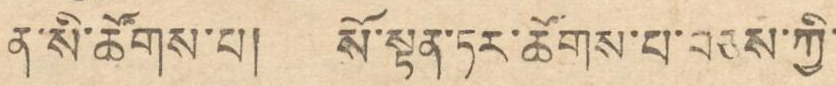ན་སི་ཚོགས་པ། སོ་སྟན་ཏར་ཚོགས་པ་བཅས་ཀྱི་
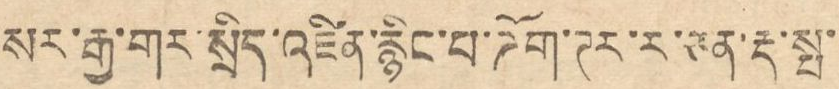སར་རྒྱ་གར་སྲིད་འཛིན་རྙིང་པ་ཌོག་ཊར་ར་ཅན་རྡ་སྤ་
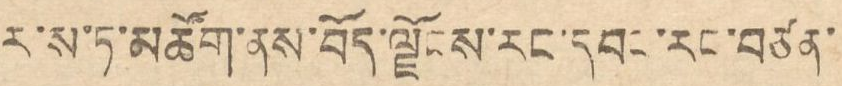ར་ས་ཏ་མཚོག་ནས་བོད་ལྗོངས་རང་དབང་རང་བཙན་
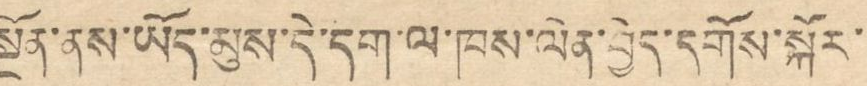སྔོན་ནས་ཡོད་མུས་དེ་དག་ལ་ཁས་ལེན་བྱེད་དགོས་སྐོར་
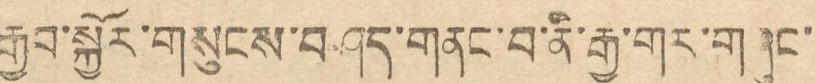རྒྱབ་སྐྱོར་གསུངས་བཤད་གནང་བ་ནི་རྒྱ་གར་གཞུང་
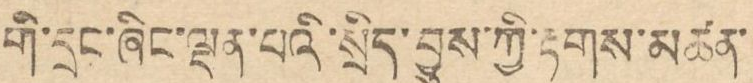གི་དྲང་ཞིང་ལྡན་པའི་སྲིད་བྱུས་ཀྱི་རྟགས་མཚན་
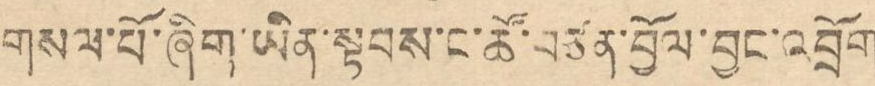གསལ་པོ་ཞིག་ཡིན་སྟབས་ང་ཚོ་བཙན་བྱོལ་བྱང་འབྲོག
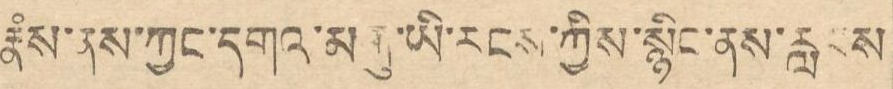རྣཾས་ན་ཀྱང་དགའ་མགུ་ཡི་རངས་ཀྱིས་སྙིང་ནས་རླབས་
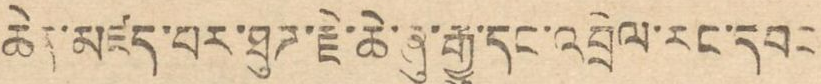ཆེན་མཛད་པར་ཐུཊ་རྗེ་ཆེ་ཞུ་རྒྱུ་དང་འབྲེལ་རང་དབང
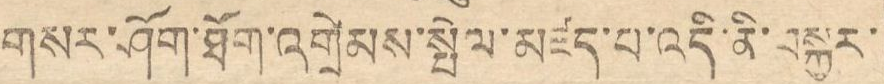གསར་ཤོག་ཐོག་འགྲེམས་སྤེལ་མཛད་པ་འདི་ནི་བསྐྱར་
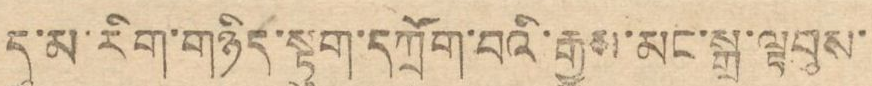དུ་མ་རིག་གཉིད་སྟུག་དཀྲོག་བའི་རྒྱུས་མང་སྒྲ་ལྟ བུས་
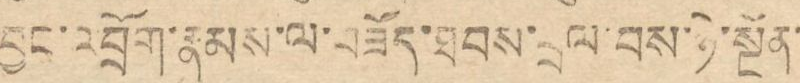བྱང་འབྲོག་རྣམས་ལ་བཟོད་ཐབས་བྲལ་བས་ཉེ་སྔོན་
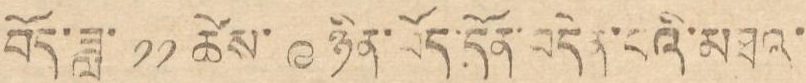བོད་ཟླ་ ༡༡ ཚེས་ ༩ ཉིན་བོད་དོན་བདེན་པའི་མཐའ་
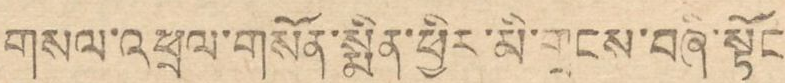གསལ་འཕྲལ་གསོན་སྨིན་ཕྱིར་མི་གྲངས་བཞི་སྟོང
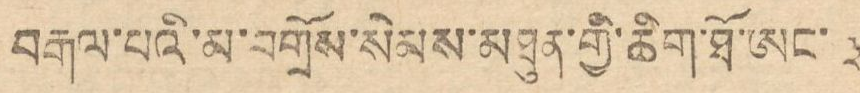བརྒལ་པའི་མ་བགྲོས་སེམས་མཐུན་གྱི་ཆིག་ཐོ་ཨང་ ༣
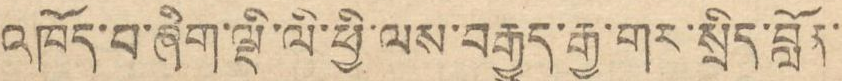འཁོད་པ་ཞིག་ལྡི་ལི་ཕྱི་ལས་བརྒྱུད་རྒྱ་གར་སྲིད་བློན་
